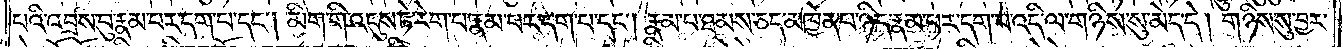པའི་འབྲས་བུ་རྣམ་པར་དག་པ་དང༌། མིག་གི་འདུས་ཏེ་རེག་པ་རྣམ་པར་དག་པ་དང༌། རྣམ་པ་ཐམས་ཅད་མཁྱེན་པ་ཉིད་རྣམ་པར་དག་པ་འདི་ལ་གཉིས་སུ་མེད་དེ། གཉིས་སུ་བྱར་
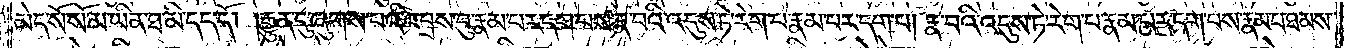མེད་སོ་སོ་མ་ཡིན་ཐ་མི་དད་དོ། །རྒྱུན་དུ་ཞུགས་པའི་འབྲས་བུ་རྣམ་པར་དག་པས་རྣ་བའི་འདུས་ཏེ་རེག་པ་རྣམ་པར་དག་པ། རྣ་བའི་འདུས་ཏེ་རེག་པ་རྣམ་པར་དག་པས་རྣམ་པ་ཐམས་
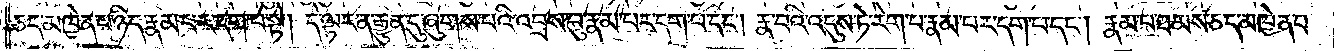ཅད་མཁྱེན་པ་ཉིད་རྣམ་པར་དག་པ་སྟེ། དེ་ལྟར་ན་རྒྱུན་དུ་ཞུགས་པའི་འབྲས་བུ་རྣམ་པར་དག་པ་དང༌། རྣ་བའི་འདུས་ཏེ་རེག་པ་རྣམ་པར་དག་པ་དང༌། རྣམ་པ་ཐམས་ཅད་མཁྱེན་པ་
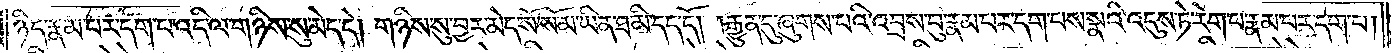ཉིད་རྣམ་པར་དག་པ་འདི་ལ་གཉིས་སུ་མེད་དེ། གཉིས་སུ་བྱར་མེད་སོ་སོ་མ་ཡིན་ཐ་མི་དད་དོ། །རྒྱུན་དུ་ཞུགས་པའི་འབྲས་བུ་རྣམ་པར་དག་པས་སྣའི་འདུས་ཏེ་རེག་པ་རྣམ་པར་དག་པ།
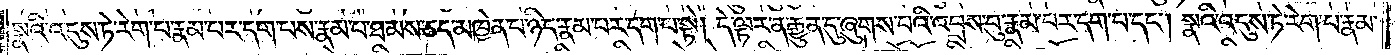སྣའི་འདུས་ཏེ་རེག་པ་རྣམ་པར་དག་པས་རྣམ་པ་ཐམས་ཅད་མཁྱེན་པ་ཉིད་རྣམ་པར་དག་པ་སྟེ། དེ་ལྟར་ན་རྒྱུན་དུ་ཞུགས་པའི་འབྲས་བུ་རྣམ་པར་དག་པ་དང༌། སྣའི་འདུས་ཏེ་རེག་པ་རྣམ་
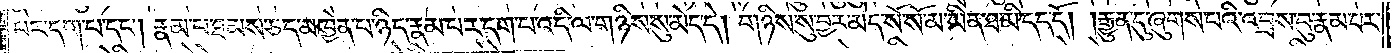པར་དག་པ་དང༌། རྣམ་པ་ཐམས་ཅད་མཁྱེན་པ་ཉིད་རྣམ་པར་དག་པ་འདི་ལ་གཉིས་སུ་མེད་དེ། གཉིས་སུ་བྱར་མེད་སོ་སོ་མ་ཡིན་ཐ་མི་དད་དོ། །རྒྱུན་དུ་ཞུགས་པའི་འབྲས་བུ་རྣམ་པར་
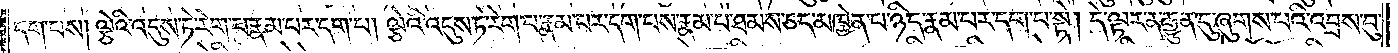དག་པས། ལྕེའི་འདུས་ཏེ་རེག་པ་རྣམ་པར་དག་པ། ལྕེའི་འདུས་ཏེ་རེག་པ་རྣམ་པར་དག་པས་རྣམ་པ་ཐམས་ཅད་མཁྱེན་པ་ཉིད་རྣམ་པར་དག་པ་སྟེ། དེ་ལྟར་ན་རྒྱུན་དུ་ཞུགས་པའི་འབྲས་བུ་
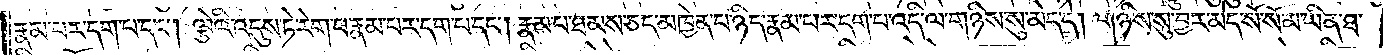རྣམ་པར་དག་པ་དང༌། ལྕེའི་འདུས་ཏེ་རེག་པ་རྣམ་པར་དག་པ་དང༌། རྣམ་པ་ཐམས་ཅད་མཁྱེན་པ་ཉིད་རྣམ་པར་དག་པ་འདི་ལ་གཉིས་སུ་མེད་དེ། གཉིས་སུ་བྱར་མེད་སོ་སོ་མ་ཡིན་ཐ་
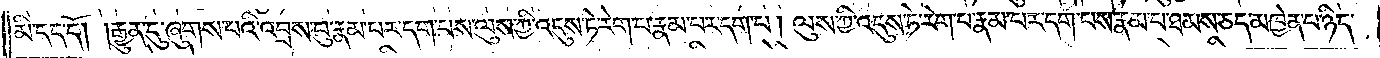མི་དད་དོ། །རྒྱུན་དུ་ཞུགས་པའི་འབྲས་བུ་རྣམ་པར་དག་པས་ལུས་ཀྱི་འདུས་ཏེ་རེག་པ་རྣམ་པར་དག་པ། ལུས་ཀྱི་འདུས་ཏེ་རེག་པ་རྣམ་པར་དག་པས་རྣམ་པ་ཐམས་ཅད་མཁྱེན་པ་ཉིད་
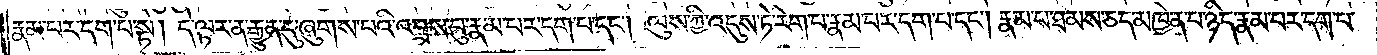རྣམ་པར་དག་པ་སྟེ། དེ་ལྟར་ན་རྒྱུན་དུ་ཞུགས་པའི་འབྲས་བུ་རྣམ་པར་དག་པ་དང༌། ལུས་ཀྱི་འདུས་ཏེ་རེག་པ་རྣམ་པར་དག་པ་དང༌། རྣམ་པ་ཐམས་ཅད་མཁྱེན་པ་ཉིད་རྣམ་པར་དག་པ་
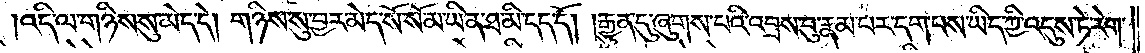འདི་ལ་གཉིས་སུ་མེད་དེ། གཉིས་སུ་བྱར་མེད་སོ་སོ་མ་ཡིན་ཐ་མི་དད་དོ། །རྒྱུན་དུ་ཞུགས་པའི་འབྲས་བུ་རྣམ་པར་དག་པས་ཡིད་ཀྱི་འདུས་ཏེ་རེག་
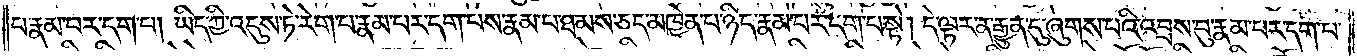པ་རྣམ་པར་དག་པ། ཡིད་ཀྱི་འདུས་ཏེ་རེག་པ་རྣམ་པར་དག་པས་རྣམ་པ་ཐམས་ཅད་མཁྱེན་པ་ཉིད་རྣམ་པར་དག་པ་སྟེ། དེ་ལྟར་ན་རྒྱུན་དུ་ཞུགས་པའི་འབྲས་བུ་རྣམ་པར་དག་པ་
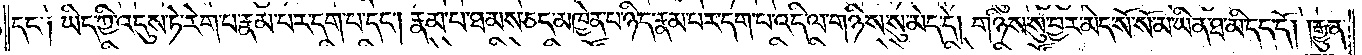དང་༑ ཡིད་ཀྱི་འདུས་ཏེ་རེག་པ་རྣམ་པར་དག་པ་དང༌། རྣམ་པ་ཐམས་ཅད་མཁྱེན་པ་ཉིད་རྣམ་པར་དག་པ་འདི་ལ་གཉིས་སུ་མེད་དེ། གཉིས་སུ་བྱར་མེད་སོ་སོ་མ་ཡིན་ཐ་མི་དད་དོ། །རྒྱུན་
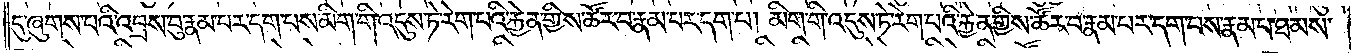དུ་ཞུགས་པའི་འབྲས་བུ་རྣམ་པར་དག་པས་མིག་གི་འདུས་ཏེ་རེག་པའི་རྐྱེན་གྱིས་ཚོར་བ་རྣམ་པར་དག་པ། མིག་གི་འདུས་ཏེ་རེག་པའི་རྐྱེན་གྱིས་ཚོར་བ་རྣམ་པར་དག་པས་རྣམ་པ་ཐམས་
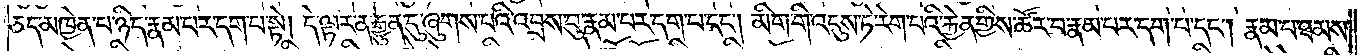ཅད་མཁྱེན་པ་ཉིད་རྣམ་པར་དག་པ་སྟེ། དེ་ལྟར་ན་རྒྱུན་དུ་ཞུགས་པའི་འབྲས་བུ་རྣམ་པར་དག་པ་དང༌། མིག་གི་འདུས་ཏེ་རེག་པའི་རྐྱེན་གྱིས་ཚོར་བ་རྣམ་པར་དག་པ་དང༌། རྣམ་པ་ཐམས་
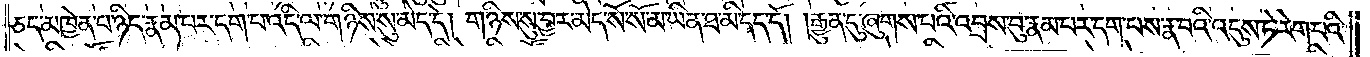ཅད་མཁྱེན་པ་ཉིད་རྣམ་པར་དག་པ་འདི་ལ་གཉིས་སུ་མེད་དེ། གཉིས་སུ་བྱར་མེད་སོ་སོ་མ་ཡིན་ཐ་མི་དད་དོ། །རྒྱུན་དུ་ཞུགས་པའི་འབྲས་བུ་རྣམ་པར་དག་པས་རྣ་བའི་འདུས་ཏེ་རེག་པའི་
